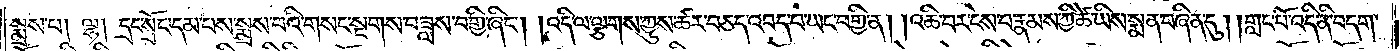སྨྲས་པ། ལྷ། དྲང་སྲོང་དམ་པས་སྨྲས་པའི་གསང་སྔགས་བཟླས་བགྱི་ཞིང༌། །འདི་ལ་ལྕགས་ཀྱུས་ཚར་བཅད་འབད་པ་ཡང་བགྱི་ན། འཆི་བར་ངེས་པར་རྣམས་ཀྱིས་ཚེ་ཡིས་སྨན་བཞིན་དུ། །གླང་པོ་འདི་ནི་བདག་
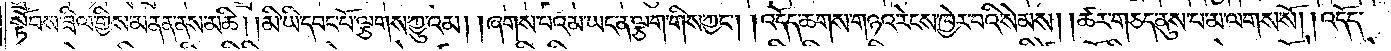སྟོབས་ཟིལ་གྱིས་མནན་ནས་མཆི། །མི་ཡི་དབང་པོ་ལྕགས་ཀྱུའམ། །ཞགས་པའམ་ཡང་ན་ལྕགས་གིས་ཀྱང༌། །འདོད་ཆགས་གཉའ་རེངས་ཁྱེར་བའི་སེམས། །ཚར་གཅད་ནུས་པ་མ་ལགས་སོ། །འདོད་
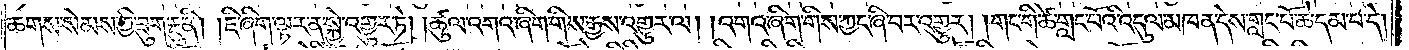ཆགས་སེམས་ཀྱི་ཟུག་རྔུ་ནི། །ཇི་ཞིག་ལྟར་ན་སྐྱེ་འགྱུར་ཏེ། །ཚུལ་འགའ་ཞིག་གིས་རྒྱས་འགྱུར་ལ། །འགའ་ཞིག་གིས་ཀྱང་ཞི་བར་འགྱུར། །གང་གི་ཚེ་གླང་པོའི་འདུལ་མཁན་དེས་གླང་པོ་ཆེ་དམ་པ་དེ།
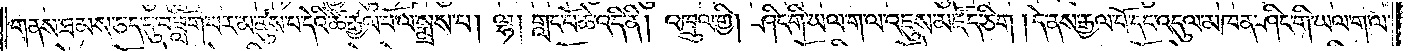གནས་ཐམས་ཅད་དུ་བཟློག་པར་མ་ནུས་པ་དེའི་ཚེ་རྒྱལ་པོ་ལ་སྨྲས་པ། ལྷ། གླང་པོ་ཆེ་འདི་ནི། འཁྲུལ་གྱི། ཤིང་གི་ཡལ་ག་ལ་འཇུས་མཛོད་ཅིག །དེ་ནས་རྒྱལ་པོ་དང་འདུལ་མཁན་ཤིང་གི་ཡལ་ག་ལ་
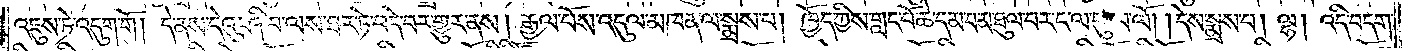འཇུས་ཏེ་འདུག་གོ །དེ་ནས་དེའི་ཤི་བ་ལས་ཐར་ཏེ་བདེ་བར་གྱུར་ནས། རྒྱལ་པོས་འདུལ་མཁན་ལ་སྨྲས་པ། ཁྱོད་ཀྱིས་གླང་པོ་ཆེ་དམ་པ་མ་ཐུལ་བར་ང་ལ་ཕུལ་ལོ། །དེས་སྨྲས་པ། ལྷ། འདི་བདག་
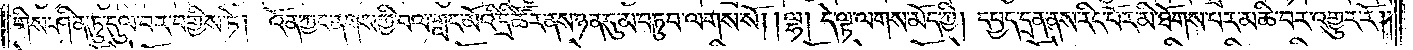གིས་ཤིན་ཏུ་དུལ་བར་བགྱིས་ཏེ། འོན་ཀྱང་ནགས་ཀྱི་བལ་གླང་མོའི་དྲི་ཚོར་ནས་ཉན་དུ་མ་བཏུབ་ལགས་སོ། །ལྷ་དེ་ལྟ་ལགས་མོད་ཀྱི། དཔྱད་དྲན་ནས་རིང་པོར་མི་ཐོགས་པར་མཆི་བར་འགྱུར་རོ། །
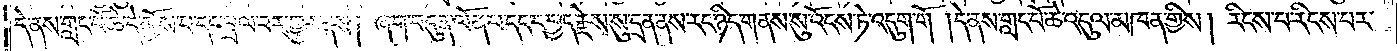དེ་ནས་གླང་པོ་ཆེ་དེ་མྱོས་པ་དང་བྲལ་བར་གྱུར་ནས། ཞག་བདུན་ལོན་པ་དང་དཔྱད་རྗེས་སུ་དྲན་ནས་རང་ཉིད་གནས་སུ་འོངས་ཏེ་འདུག་གོ །དེ་ནས་གླང་པོ་ཆེ་འདུལ་མཁན་གྱིས། རིངས་པ་རིངས་པར་
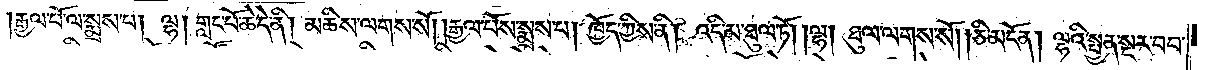རྒྱལ་པོ་ལ་སྨྲས་པ། ལྷ། གླང་པོ་ཆེ་དེ་ནི། མཆིས་ལགས་སོ། །རྒྱལ་པོས་སྨྲས་པ། ཁྱོད་ཀྱིས་ནི། འདི་མ་ཐུལ་ཏོ། །ལྷ། ཐུལ་ལགས་སོ། །ཅི་མངོན། ལྷའི་སྤྱན་སྔར་བབ་
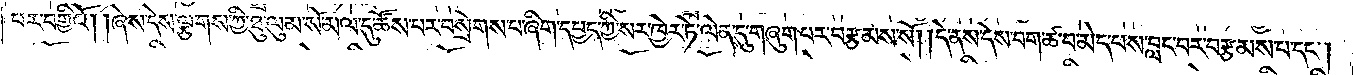པར་བགྱིའོ། །ཞེས་དེས་ལྕགས་ཀྱི་ཐུ་ལུམ་སོ་མལ་དུ་ཚོས་པར་བསྲེགས་པ་ཞིག་དཔྱད་ཀྱི་སར་ཁྱེར་ཏེ་ལེན་དུ་གཞུག་པར་བརྩམས་སོ། །དེ་ནས་དེས་བག་ཚ་བ་མེད་པས་བླང་བར་བརྩམས་པ་དང༌།
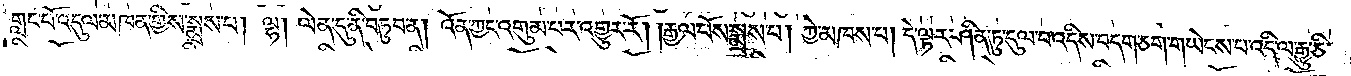གླང་པོ་འདུལ་མཁན་གྱིས་སྨྲས་པ། ལྷ། ལེན་དུ་ནི་བཏབ་ན། འོན་ཀྱང་འགུམ་པར་འགྱུར་རོ། །རྒྱལ་པོས་སྨྲས་པ། ཀྱེ་མཁས་པ། དེ་ལྟར་ཤིན་ཏུ་དུལ་བ་འདིས་བདག་ཅག་གི་གཡེངས་པ་འདི་ལ་རྒྱུ་ཅི་
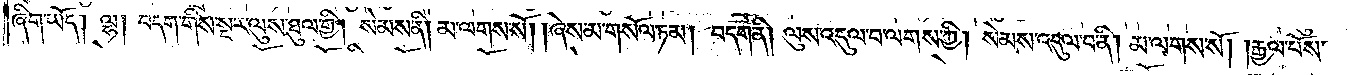ཞིག་ཡོད། ལྷ། བདག་གིས་སྔར་ལུས་ཐུལ་གྱི། སེམས་ནི། མ་ལགས་སོ། །ཞེས་མ་གསོལ་ཏམ། བདག་ནི། ལུས་འདུལ་བ་ལགས་ཀྱི། སེམས་འདུལ་བ་ནི། མ་ལགས་སོ། །རྒྱལ་པོས་
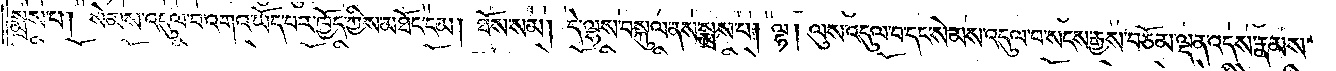སྨྲས་པ། སེམས་འདུལ་བ་འགའ་ཡོད་པར་ཁྱོད་ཀྱིས་མཐོང་ངམ། ཐོས་སམ། དེ་ལྷས་བསྐུལ་ནས་སྨྲས་པ། ལྷ། ལུས་འདུལ་བ་དང་སེམས་འདུལ་བ་སངས་རྒྱས་བཅོམ་ལྡན་འདས་རྣམས་
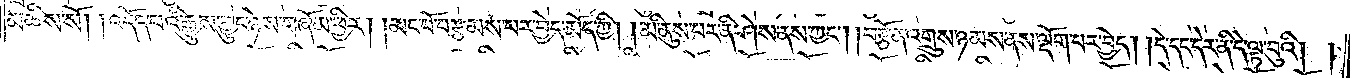མཆིས་སོ། །འདོད་པའི་རྒྱུ་མ་བྱུང་ཉེས་གཞོམ་ཕྱིར། །མང་པོ་བརྩམས་པར་བྱེད་མོད་ཀྱི། །མི་ནུས་པར་ནི་ཤེས་ནས་ཀྱང༌། །བརྩོན་འགྲུས་ཉམས་ནས་ལྡོག་པར་བྱེད། །དེ་དང་དེར་ནི་དེ་ལྟ་བུའི། །
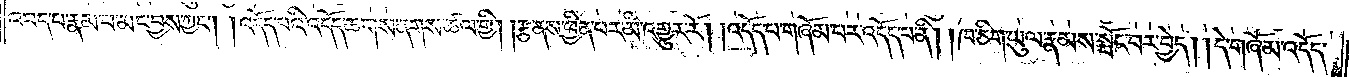འབད་པ་རྣམ་པ་མང་བྱས་ཀྱང༌། །འདོད་པའི་འདོད་ཆགས་ནགས་ཚལ་གྱི། །རྩ་ནས་ཕྱིན་པར་མི་འགྱུར་རོ། །འདོད་པ་གཞོམ་པར་འདོད་པ་ནི། །ཁ་ཅིག་ཡུལ་རྣམས་སྤོང་བར་བྱེད། །དེ་གཞོམ་འདོད་
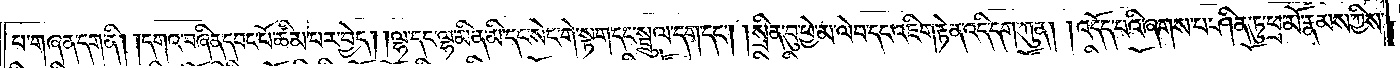པ་གཞན་དག་ནི། །དགའ་བཞིན་དབང་པོ་ཚིམ་པར་བྱེད། །ལྷ་དང་ལྷ་མིན་མི་དང་སེང་གེ་སྟག་དང་སྦྲུལ་དག་དང༌། །སྲིན་བུ་ཕྱེ་མ་ལེབ་དང་འཇིག་རྟེན་འདི་དག་ཀུན། །འདོད་པའི་ཞགས་པ་ཤིན་ཏུ་ཕྲ་མོ་རྣམས་ཀྱིས་
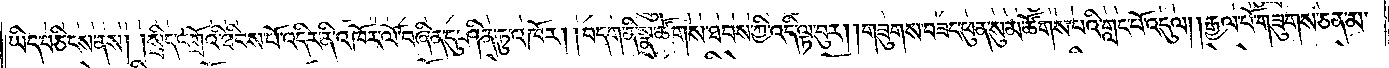ཡིད་བཅིངས་ནས། །སྲིད་འགྲོའི་ཐིབས་པོ་འདིར་ནི་འཁོར་ལོ་བཞིན་དུ་ཤིན་ཏུ་འཁོར། །བདག་ནི་སྣ་ཚོགས་ཐབས་ཀྱི་འདི་ལྟ་བུར། །གཟུགས་བཟང་ཕུན་སུམ་ཚོགས་པའི་གླང་པོ་འདུལ། །རྒྱལ་པོ་གཟུགས་ཅན་མ་
